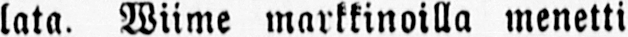lata. Wiime markkinoilla menetti
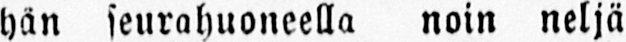hän seurahuoneella noin neljä
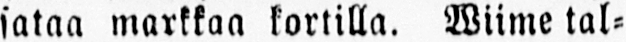sataa markkaa kortilla. Wiime tal-
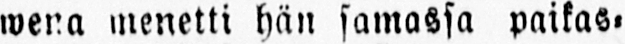wena menetti hän samassa paikas-
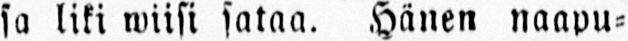sa liki wiisi sataa. Hänen naapu-
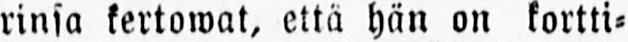rinsa kertowat, että hän on kortti-
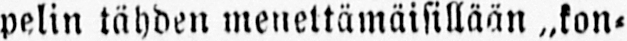pelin tähden menettämäisillään „kon-
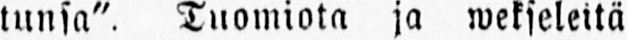tunsa" Tuomiota ja wekseleitä
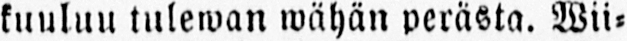kuuluu tuleman wähän perästä. Wii-
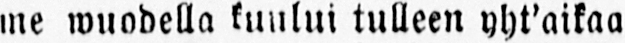me wuodella kuului tulleen yht'aikaa
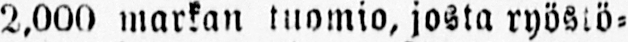2,000 markan tuomio, josta ryöstö-
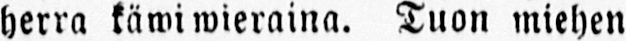herra käwi wieraina. Tuon miehen
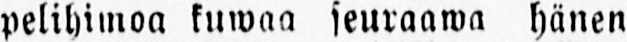pelihimoa kuwaa seuraawa hänen
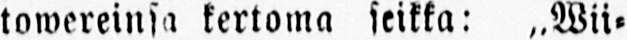towereinsa kertoma seikka: „Wii-
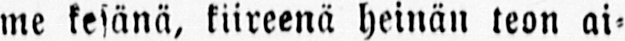me kesänä, kiireenä heinän teon ai-
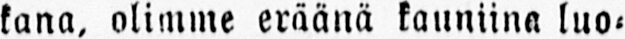kana, olimme eräänä kauniina luo-
